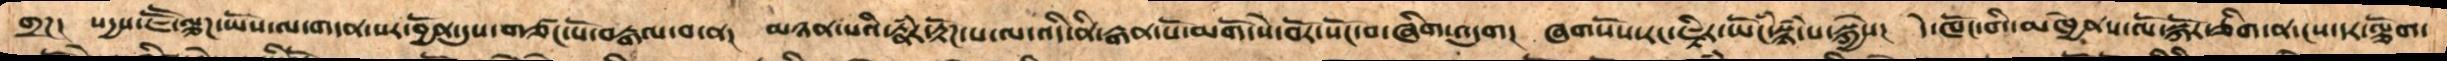གྲཌ།  སདྱས་ཇཽ་ལྕཌ་ཡོས་ལ་གདན་སར་བྱོན་དུས་གཙང་པོ་བརྒལ་བ་ན།  མཉན་པའི་རྣཾར་རྟོཌ་པ་ལ་འདི་ནི་རྒན་པོ་མགོ་སེ་བོར་སོང་བ་ཞིག་འདུག།   ཞགསོས་རང་ཇྟིར་ཡོངཾ་སྙཾ་པ་སྐྱེས།   དེ་ཁོང་གི་མཁྱེནས་ལོ་སྐོར་ཅིག་ན་ངས་དར་ལྕོག
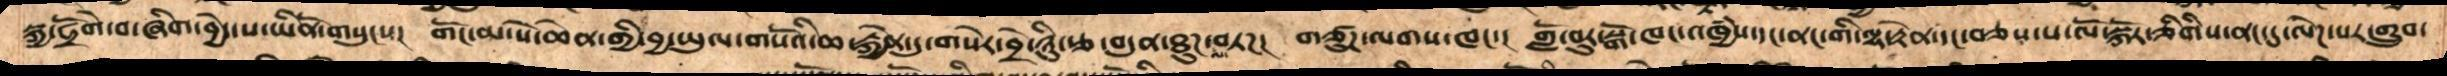སྐྱ་ཧྲོགེ་བ་ཞིག་བྱེད་པ་ཡིནོ་གསུངས།  གོང་མ་སེ་ཆེན་གྱི་བྱ་ཡུལ་གསོའི་ཆ་རྐྱེན་དུ་གསེར་བྲེ་ཉིུ་རྩ་བདུན་ཐུཌ་ལ་བཏཌ།  གཙུཌ་ལགས་ཁང་།  གློ་བུར་སྒོ་ཁང་འཁྱཾས་དང་ནང་གི་ལྷ་རྟེན་དང་བཅས་པ་ལོ་སྐོར་ཅིགིས་ནང་དུ་ལེཌ་པར་གྲུབ་
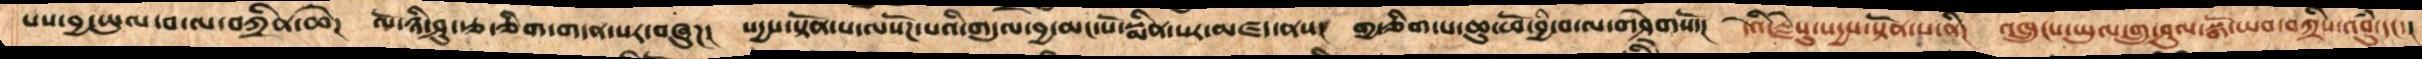པས་བྱ་ཡུལ་བ་ལ་བཀྲིན་ཆེ།  ལོ་ཉི་ཤུ་རྩ་ཅིག་གདན་སར་བཞུཌ།  སདྱས་སྟོན་པ་ལསོཌ་པའི་གདུལ་བྱ་མང་པོ་སྨིན་པར་མཛད་ནས།   གྱ་ཅིག་པ་ཆུ་ཕོ་བྱི་བ་ལ་གཤེགསོ།  དེའི་རྗེསུ་སདྱས་སྟོན་པ་ནི།  འཁྲུངས་ཡུལ་གྲུ་ཤུལ་སྒོ་ཡབ་བཀྲིས་འབུཾ་དང་།
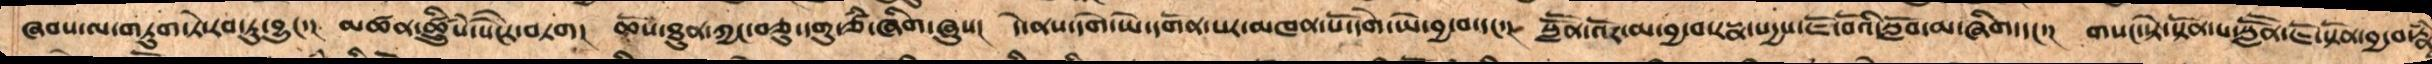ཞབས་ལ་གཏུགས་ཏེ་རབ་ཏུ་བྱུང་། མཚན་ཚྲིུཾས་སཻངར་བཏག།   ཆོས་ཐུན་ཀྱང་བཅུ་དགུ་ཙཾ་ཞིག་ཞུས།   དེ་ནས་དགེ་ཡེ་དགོན་པར་མཁན་པོ་དགེ་ཡེ་བྱ་བ་དང་།   སླཽན་འོར་མ་བྱ་བ་རཏྣ་སདྱས་ཇོ་བོའི་སློབ་མ་ཞིག་དང་།  གསང་སྟེ་སྟོན་པ་སླཽབ་ཇོ་སྟོན་བྱ་བ་རྣཾ
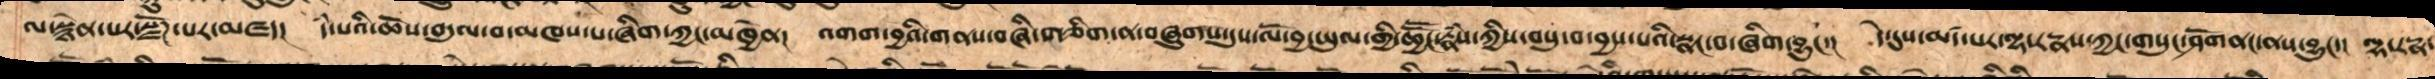ལ་སྙེན་པར་སྫོཌ་པར་མཛད།  དཾ་པའི་ཆོས་བདུལ་བ་མཁས་པ་ཞིག་ཀྱང་མཁྱེན།  འགག་བྱའི་གནས་གཞི་གཅིག་ན་བཞུགས་དུས་ལོ་བྱ་ཡུལ་གྱི་་ཆྱཽང་རྣཾས་ཀྱིས་བསུ་བ་བྱས་པའི་སྣང་བ་ཞིག་བྱུང་།   དེ་དུས་མཛད་པར་ལྷ་རཏྣས་ཀྱང་གསུང་ཤོགནང་ནས་བྱུང་། ལྷ་རཏྣ་
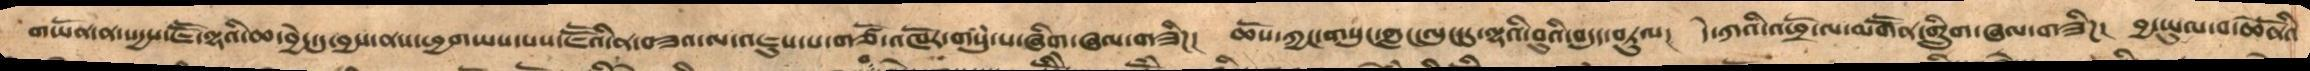གཡོན་ན་སདྱས་ཇཽ་ལྷའི་ཆ་བྱེད་དུ་བྱས་ནས་ཕྱགཡས་པས་ཇཽའི་ན་བཟའ་ལ་འཇུས་པ་གཙོ་འཁོར་གསུཾ་པ་ཞིག་ཞལ་གཟིཌ།  ཆོས་ཀྱང་གསུང་གླང་ལུང་དུ་ལྷའི་བུའི་བདུད་བཏུལ།  དེ་ཀའི་འཕྲོ་ལ་མགཽན་གྲིུག་ཞལ་གཟིཌ། བྱ་ཡུལ་བ་ཆེནོའི་
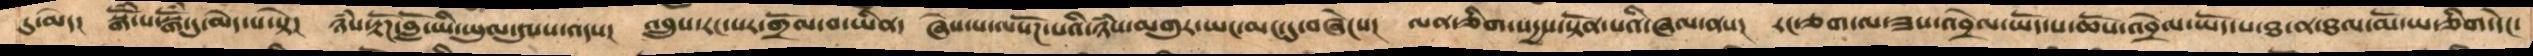དུ་མེད།  སྒོཾ་པ་སྒོཾ་དུ་མེད་པ་སྟེ།  ཉཾས་རྟོཌ་བློ་ཡི་ཡུལ་དུསས་འདས།  འབྲུས་རང་སར་གྲོལ་བ་ཡིན།  ཞེས་པ་ལསོཌ་པའི་ཉཾས་མགུར་ཡང་མང་དུ་བཞེངས་།  ལན་ཅིག་་སདྱས་སྟོན་པའི་ཞལ་ནས།  རང་ཅག་ལ་ཟས་འབྲེལ་ཡོད་པ་ཆོས་འབྲེལ་ཡོད་པ་ཐ་ན་ཐལ་མོ་ཡ་ཅིག་དེང་
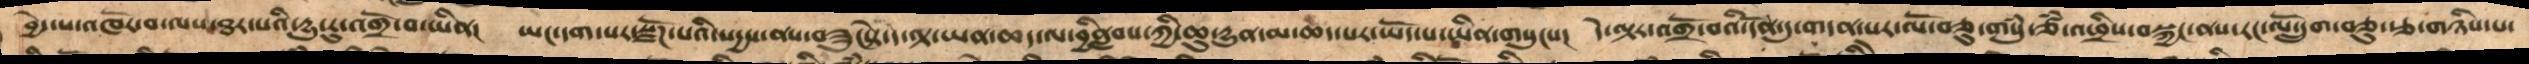བྱེ་པ་འཁོར་བ་ལས་ཐར་པའི་དྱུ་རུ་འགྲོ་བ་ཡིན།  ཡང་དག་པར་སྫོཌ་པའི་སདྱས་ནས་བཟུངསྟེ་དེ་ལྟ་ཡན་ཆད་ལ་བྱིནླབས་ཀྱི་ཆུ་དྱུན་མ་ཆད་པར་ཡོད་པ་ཡིན་གསུངས།   དེ་ལྟར་འགྲོ་བའི་དོན་དུ་གདན་་སར་ལོ་བཅུ་གསུཾ་ཙཾ་འཕྲིས་བསྐྱང་ནས་རང་ལོ་དྲུག་བཅུ་རྩ་གཉིས་པ་
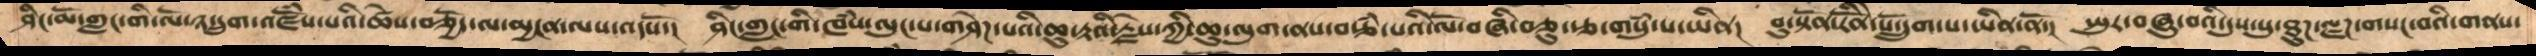ཤིང་མོ་གླང་གི་ལོ་ཉ་དྲུག་འཛོཾས་པའི་ཚེས་བཅྱོད་ལ་མྱངན་ལས་འདསོ་།  ཤིང་གླང་གི་ཁཾས་ལུང་པ་གཤེཌ་པའི་ཆུ་རྟའི་རྗེས་ཀྱི་ཆུ་ལུག་ནས་བརྩཾ་པའི་ལོ་བཞི་བཅུ་རྩ་གསུཾ་པ་ཡིན།  བུ་སྟོན་རིནོ་ེ་སོ་དྲུག་པ་ཡིན་ནོ་།   སྤུར་བཞུ་བའི་དུས་སུ་ཐུཌ་ལྗཌ་གསང་བའི་གནས་
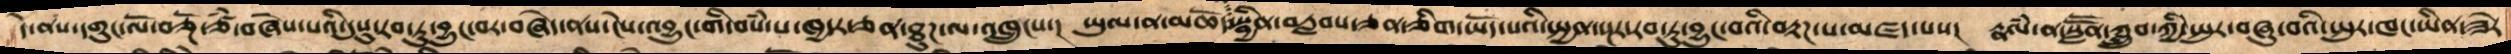དེ་ནས་དགུང་ལོ་བཅྔོ་་ཙཾ་བཞེས་པའི་དུསུ་རབ་ཏུ་བྱུང་བར་བཞེད་ནས་ངེས་འབྱུང་གི་བསཾ་པ་ཁྱདར་ཅན་ཐུཌ་ལ་འཁྲུངས།  ཡུལ་ན་མཆོད་སྦྱིན་བརླབས་ཅན་ཅིག་ཡོད་པའི་སྤྱན་སྔར་རབ་ཏུ་བྱུང་བའི་བརྟཌ་པ་མཛད་པས།  རྣལཾ་ན་སླཽན་ཀླྲུབ་ཀྱི་སྤུར་བཞུ་བའི་སྤུར་ཁང་ཡིན་ཟེར་
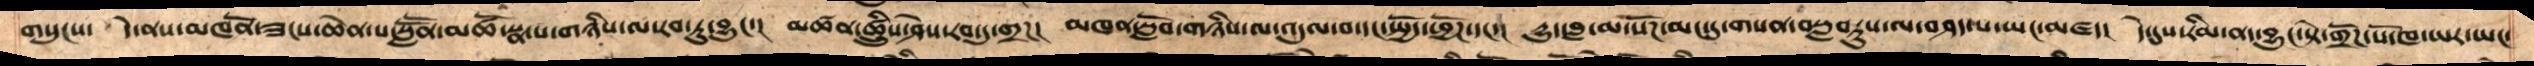གསུངས།  དེ་ནས་མཁནོ་ཟངས་ཆེན་པ་སླཽན་མཚོ་སྣ་པ་གཉིས་ལ་རབ་ཏུ་བྱུང།  མཚན་ཚྲིུཾས་ཤེས་རབ་ཏུ་གྲཌ།  མཁན་སློབ་གཉིས་ལ་འདུལ་བ་དང་སྤྱོད་ཕྱོཌ་དང་།  དྱུད་བླ་མ་སོཌ་མང་དུ་གསན་བསླབཏུས་ལ་བཤད་པ་ཡང་མཛད།  དེ་དུས་རིམ་ནད་བྱུང་སྟེ་གྲོཌ་པོ་ཁ་ཡར་ཡང་
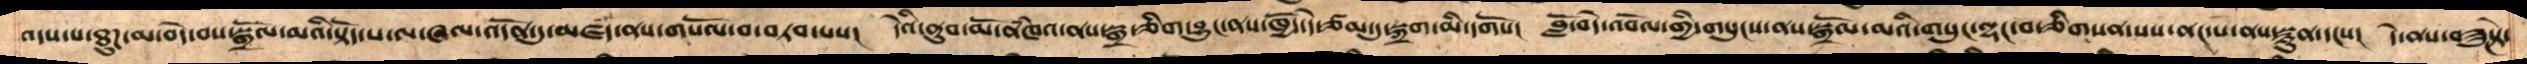འདས་པ་ཐུཌ་མ་བདེ་བས་སྒྲོལ་མའི་སྟོད་པ་ལ་ཞལ་འདོན་དུ་མཛད་ནས་གསོལ་བ་བཏབ་པས།  དེའི་ནུབ་མོ་ནཾཁའ་ནས་སྒྲ་ཅིག་བྱུང་ནས་ཁྱོད་དེ་ཙམ་དུ་སྐྲག་མི་དགོས།   བློ་བདེ་འབོལ་གྱི་གསུངས་ནས་སྒྲོལ་མའི་གསུང་ལྷང་བ་ཅིགསན་པས་ནང་པ་ནས་སྙུན་དངས། དེ་ནས་བཟུངསྟེ་
